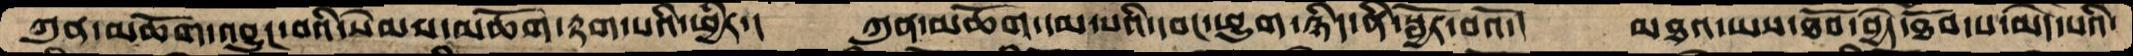ཀུན་མཆོག་འབྱུང་བའི་སེམས་མཆོག་རྟག་པའི་ཕྱིར་།  ཀུན་མཆོག་དམ་པའི་དབང་ཕྱུག་ཉིད་ནི་སྦྱོར་བའོ་།  མཐའ་ཡས་ཐོབ་བྱེད་ཐོབ་པ་མེད་པའི་
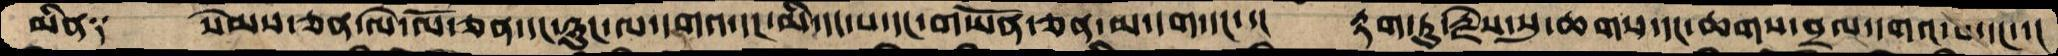མིན༑    སེམས་ཅན་ལེ་ལོ་ཅན་དང་ཉུང་ལ་དགའ་དང་མི་དང་པ་དང་གཡོན་ཅན་མ་དག་དང་་།  རྟག་ཏུ་རྗེས་སུ་ཆགས་དང་ཆགས་བྲལ་དགའ་བ་དང་་།
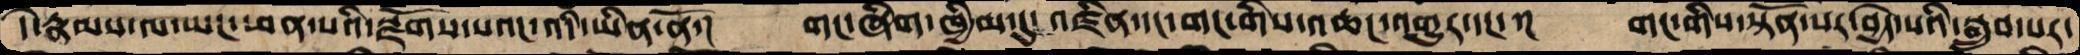དེ་རྣམས་ལ་ཡང་ཕན་པའི་སྫོགས་པའང་འདི་ཡིན་ནོ་།   གང་ཞིག་ཁྱིམ་དུ་འཛིན་དང་གང་གིས་འཆང་འགྱུར་དང་་།  གང་གིས་སྟོན་པར་བྱེད་པའི་སྒྲུབ་པར་
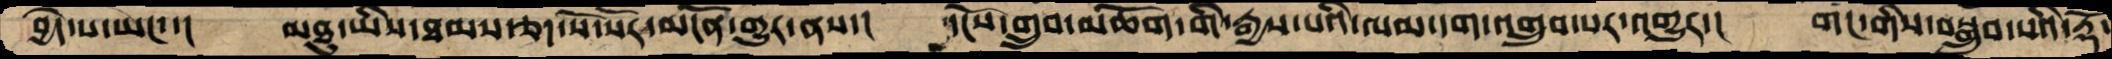བྱེད་པ་ཡང་་།  མཐུ་ཡིས་ཐམས་ཅན་སོ་སོར་མངོན་གྱུར་ནས་།  དངོས་གྲུབ་མཆོག་གི་རྒྱས་པའི་ལམ་དག་འགྲུབ་པར་འགྱུར་།  གང་གིས་བསྒྲུབ་པའི་རྡོ་
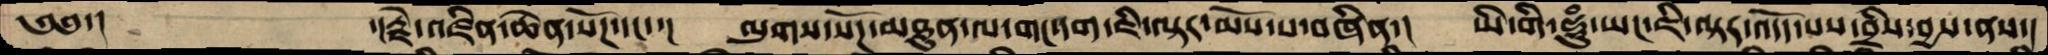༄༅་།་   ་།རྗེ་འཛིན་ཆེན་སོཌ་དང་།  ལུགས་སོཌ་མཐུན་ལ་གང་དག་ཇི་ལྟར་མོས་པ་བཞིན་།  ཡི་གེ་ཧཱུཾ་ཡང་ཇི་ལྟར་འདོད་པས་བྲིས་བྱས་ནས་།
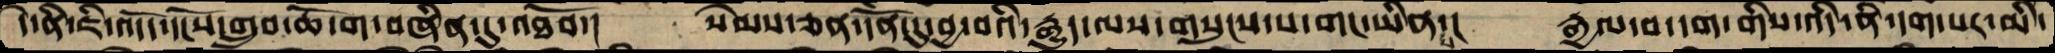དེ་ནི་ཇི་འདོད་དངོས་གྲུབ་ཆོ་ག་བཞིན་དུ་འཐོབ་།  སེམས་ཅན་དོན་དུ་བྱ་བའི་རྒྱུད་ལས་གསུངས་པ་གང་ཡིན་པ་།  རྒྱལ་བ་དག་གིས་འདི་ནི་དག་པར་མི་
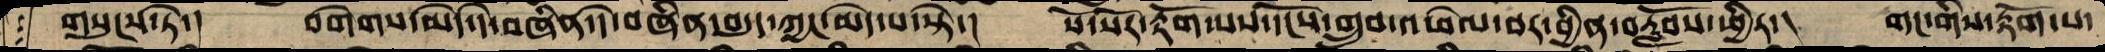གསུངས་ཏེ་།  བགེགས་མེད་དེ་བཞིན་དེ་བཞིན་བདུད་ཀྱང་མེད་པ་སྟེ་།  སོ་སོར་རྟོག་པས་དངོས་གྲུབ་འཕེལ་བར་བྱིན་བརློབས་ཕྱིར་།  གང་གིས་རྟོག་པ་
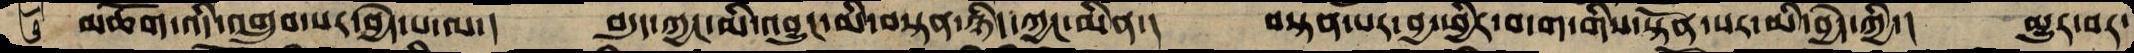མཆོག་འདི་འགྲུབ་པར་བྱེད་པ་ལ་།   བདུད་ཀྱང་མི་འབྱུང་མི་བསྟན་ཉིད་ཀྱང་མིན་།  བསྟན་པར་བྱ་ཕྱིར་བདག་གིས་སྟོན་པར་མི་བྱེད་ཀྱི་།  མྱུར་བར་
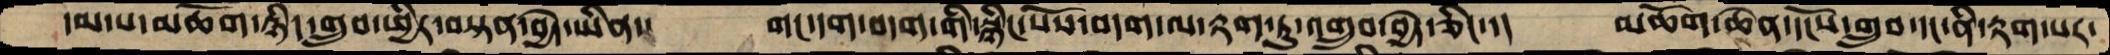དམ་པ་མཆོག་ཉིད་གྲུབ་ཕྱིར་བསྟན་བྱེད་ཡིན་།  གང་དག་བདག་གི་སྙིང་པོས་བདག་ལ་རྟག་ཏུ་འགྲུབ་བྱེད་ཅིང་་།  མཆོག་ཆེན་དངོས་གྲུབ་དང་ནི་རྟག་པར་
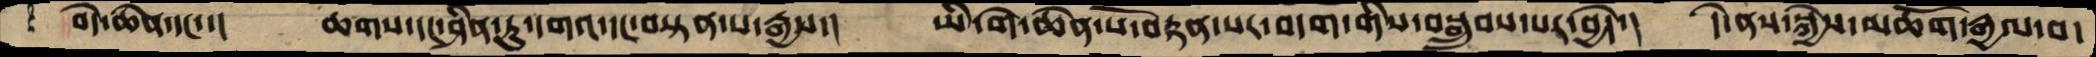བདེ་ཆེན་དང་་།  ཆགས་དང་ཤིན་ཏུ་དགའ་དང་བསྟན་པ་རྒྱས་།  ཡི་གེ་ཆེན་པོ་བརྟན་པར་བདག་གིས་བསྒྲུབས་པར་བྱེད་།  དེ་ནས་སྐྱེས་མཆོག་རྒྱལ་བ་
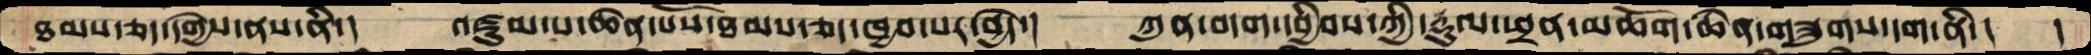ཐམས་ཅད་དགྱེས་ནས་ནི་།  འཛུམ་པ་ཆེན་པོས་ཐམས་ཅད་ཁྱབ་པར་བྱེད་།  ཀུན་བདག་དབྱིབས་ཀྱི་རྡུལ་ཕྲན་མཆོག་ཆེན་གཟུགས་དག་ནི་།  །
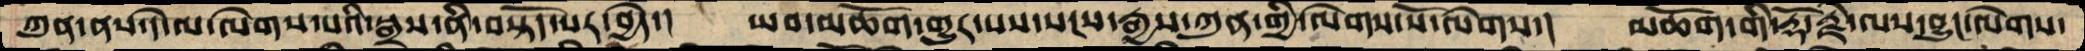ཀུན་ནས་དེ་ལ་ལེགས་པའི་སྒྲས་ནི་བསྟོད་པར་བྱེད་།  ཡབ་མཆོག་གྱུར་པས་སངས་རྒྱས་ཀུན་གྱི་ལེགས་སོ་ལེགས་།  མཆོག་གི་རྡོ་རྗེ་ལས་བྱུང་ལེགས་
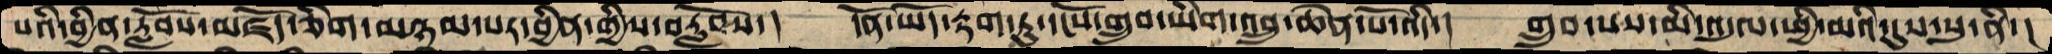པའི་བྱིན་རློབས་མཛོད་ཅིག་མཉམ་པར་བྱིན་གྱིས་བརློབས་།  དོན་ཡོད་རྟག་ཏུ་དངོས་གྲུབ་ཡིག་འབྲུ་ཆེན་པོ་འདི་།  གྲུབ་པས་མི་འདུལ་ཕྱི་མའི་དུས་སུ་ནི་།
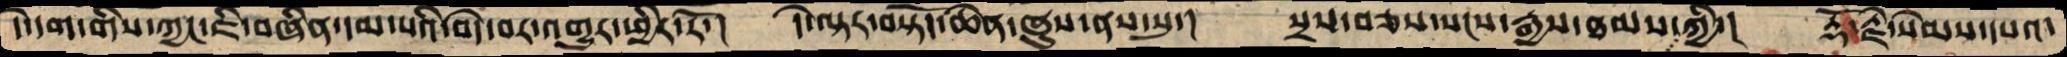དེ་དག་གིས་ཀྱང་ཇི་བཞིན་དམ་པའི་བདེ་བར་འགྱུར་ཕྱིར་རོ་།  དེ་ལྟར་བསྟོད་ཆེན་ཞུས་ནས་སུ་།  སྲས་བཅས་སངས་རྒྱས་ཐམས་ཀྱི་།   རྡོ་རྗེ་སེམས་དཔའ་
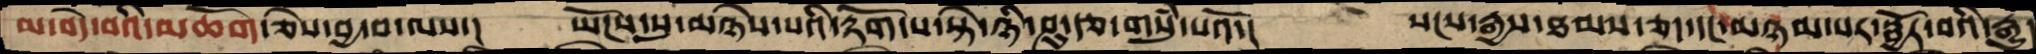མ་བདེ་བའི་མཆོག་ཅེས་བྱ་བ་ལས་།  ཡོངས་སུ་མཉེས་པའི་རྟོག་པ་སྟེ་ཉི་ཤུ་རྩ་གསུཾ་པའོ་།  སངས་རྒྱས་ཐམས་ཅད་དང་མཉམ་པར་སྦྱོར་བའི་རྒྱུ་
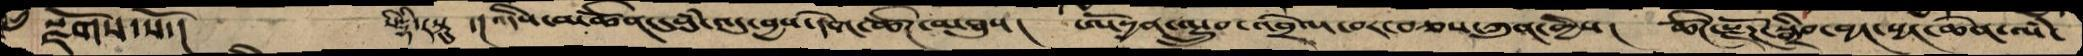སྫོགས་སོ་།       སིདྡྷི་རསྟུ  ་།འདིས་མཚོན་དུསུཾ་འདུ་བྱས་དགེ་ཚོཌ་མཐུས།  ཨོདྱན་ལྷྲུབ་འབྲེལ་བར་བཅས་ཀུན་གྱིས། ཚོཌ་སྫོཌ་སྒྲིབ་བྱང་བྱང་ཆེན་ལཾ་
